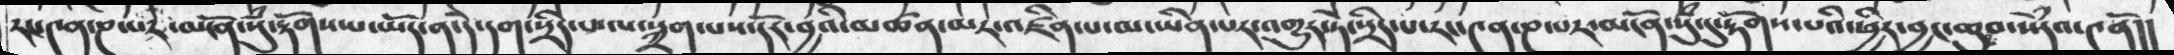རང་༤ན་ཎ་པར་མངོན་སུཾ་རྟོགསཔ་ཡོད་ན་དེ་དག་སྲིད་པ་ལ་སྐྲག་པས་དོར་བྱའི་མཚན་མར་འཛིན་པ་མ་ཡིན་པར་འགྱུར་ཏེ་སྲིད་པ་རང་༤ན་ཎ་པར་མངོན་སུཾ་དུ་རྟོགས་པའི་ཕྱིར་བྱང་ཆུབ་སེཾདའ་༤ནོ།།
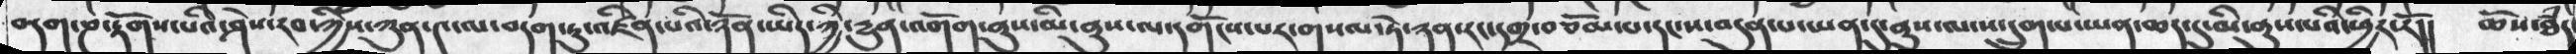བདག་ཎ་རྟོགས་པའི་ཤེས་རབ་ཀྱིས་ཀུན་༤་ལ་བདག་ཏུ་འཛིན་པའི་ཉོན་ཡིད་ཀྱི་དྱུན་འགོག་ནུས་མི་ནུས་ལ་དགོངས་པར་གསལ་ཏེ་ཉན་རང་དགྲ་བཅོམ་པ་དང་ས་བདུན་པ་ཡན་དུ་ནུས་ལ་ས་དྲུག་པ་ཡན་ཆད་དུམི་ནུས་པའི་ཕྱིར་རོ།། ཆོས་ཐཾད་་
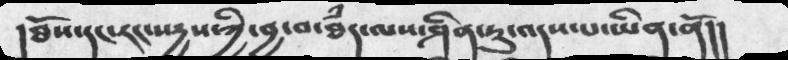།ཐོས་དང་རང་སདྱས་ཀྱི་བྱ་བ་ཐཾད་ལས་ཤིན་ཏུ་འདས་པ་ཡིན་ནོ།།
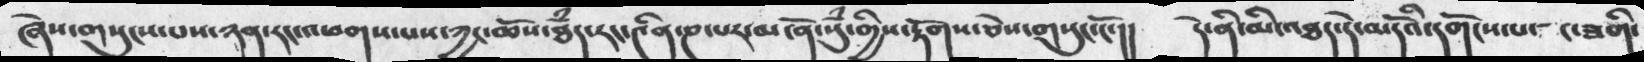ཞེས་གསུངས་པས་ཉན་རང་འཕགས་པས་ཀྱང་ཆོས་ཐཾད་རང་༤ན་ཎ་པར་མངོན་སུཾ་གྱིས་རྟོགས་ཅེས་གསུངས་ངོ་།།  དེ་ནི་མི་འཐད་དེ་མདོའི་དགོགས་པ་གང་ཟགི་
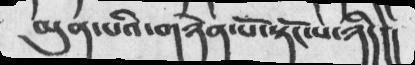མུན་པའི་གཉེན་པོ་སྟོང་པ་ཉིད།།
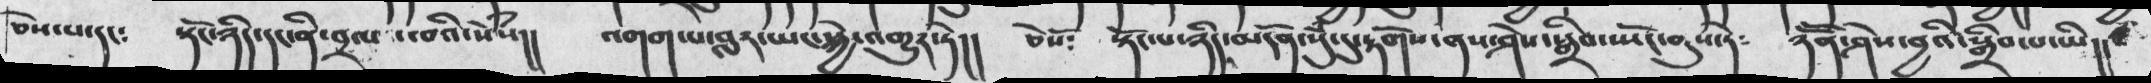ཅེདས་པ་དང༴   སྟོང་ཉིད་དང་ནི་བྲལ་ བའི་སེཾས།།  འགག་པ་སླར་ཡང་སྐྱེ་འགྱུར་ཏེ།།  ཅེསོ༴   སྟོང་པ་ཉིད་མངོན་སུཾ་དུ་རྟོགས་ནས་ཤེས་སྒྲིབ་སྤོང་ནུས་ཏེ༴   ཉོོན་ཤེས་བྱའི་སྒྲིབ་པ་ཡི།།
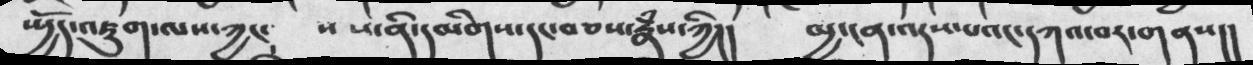སྤྱོད་འཇུག་ལས་ཀྱང༴  ས  ས་ནི་དམིགས་དང་བཅས་རྣཾས་ཀྱི།།   མྱ་ངན་འདས་་པའང་དཀའ་བར་གནས།།
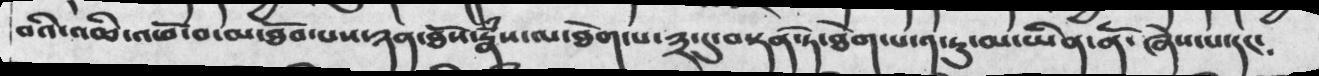བའི་འཆི་འཕོ་བ་མ་ཐོབ་པས་ཉན་ཐོས་རྣཾས་ལ་ཐེག་པ་༣་དུ་བསྟན་ཏེ་ཐེག་པ་༡་ཏུ་མ་ཡིན་ནོ་ ཞེས་པ་དང༴
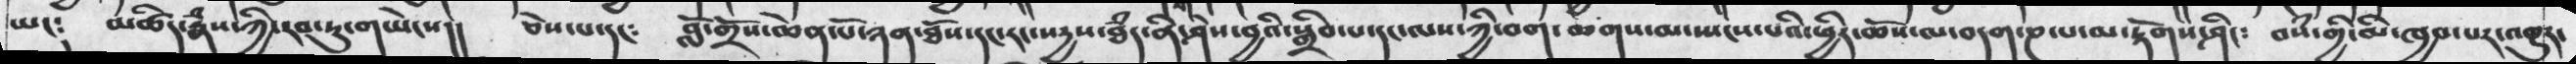ཡང༴  མཚིད་རྣྃས་ཀྱི་རབ་ཏུ་གཡེངས།།  ཅེས་པ་དང༴  བློ་གྲོས་ཆེན་པོ་ཉན་ཐོས་དདང་ར་སདྱས་ཐཾད་ནི་ཤེས་བྱའི་སྒྲིབ་པ་དང་ལས་ཀྱི་བག་ཆགས་མ་སྤངས་པའི་ཕྱིར་ཆོས་ལ་བདག་ཎ་པ་མ་རྟོགས་ཤིང༴   བསཾ་གྱི་མི་ཁྱབ་པར་འགྱུར་
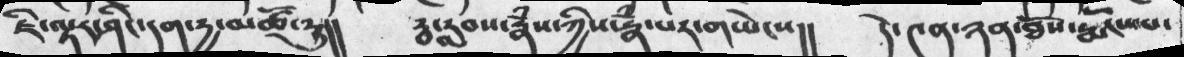ཇི་ལྟར་ཤིང་དག་དྱ་མཚོ་རུ།།   རྦ་རླབས་རྣཾས་ཀྱིས་རྣཾ་པར་གཡེངས།།     དེ་༤ན་ཉན་ཐོས་རྨོངས་པ་
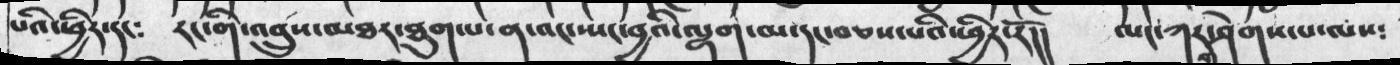པའི་ཕྱིར་དང༴  རང་གི་འབྲུས་མཐར་ཐུག་པ་ན་འང་སྤང་བྱའི་ལྷག་མ་དང་བཅས་པའི་ཕྱིར་རོ།།   ལང་ཀར་གཤེགས་པ་ལས༴
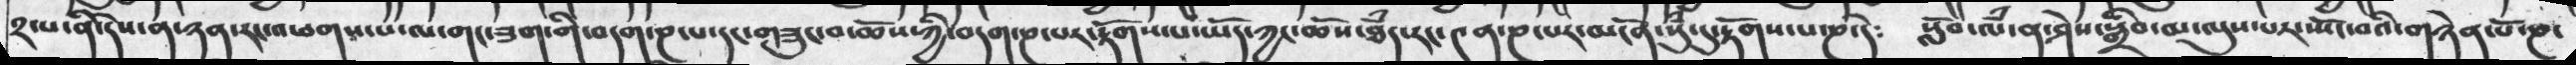༢་པ་ནི་དེས་ན་ཉན་རང་འཕགས་པ་ལ་གང་ཟག་གི་བདག་ཎ་པ་དང་གཟུང་བ་ཆོས་ཀྱི་བདག་ཎ་པར་རྟོགས་པ་ཡོད་ཀྱང་ཆོས་ཐཾད་རང་༤ན་ཎ་པར་མངོན་སུཾ་དུ་རྟོགས་པ་ཎ་དེ༴    སློབ་ལཾ་ན་ཤེས་སྒྲིབ་མ་ལུས་པར་སྤོང་བའི་གཉེན་པོ་ཎ་
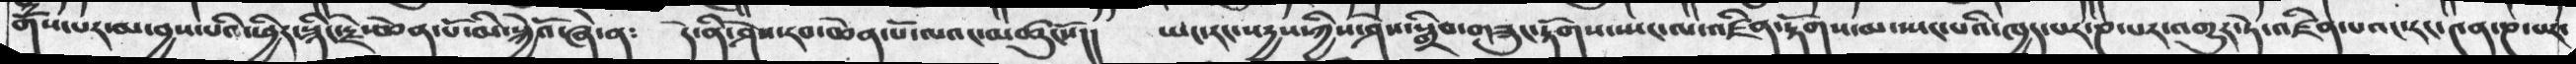གོཾས་པར་མ་བྱས་པའི་ཕྱིར་སྙིང་རྗེ་ཆེན་པོ་མི་སྐྱེའོ་ཞེས་ན༴   དེ་ནི་ཤེས་རབ་ཆེན་པོ་ལའང་མཚུངསོ།།  ཡང་རང་སདྱས་ཀྱིས་ཤེས་སྒྲིབ་གཟུང་རྟོགས་སྤང་ལ་འཛིན་རྟོགས་མ་སྤང་པའི་ཁྱད་པར་ཎ་པར་འགྱུར་ཏེ་འཛིན་པའང་རང་༤ན་ཎ་པར་
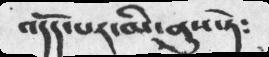འདོད་པར་མི་ནུས་ཏེ༴
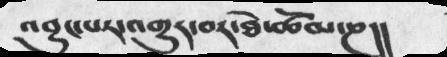འབྱུང་པར་འགྱུར་བར་ཐེ་ཚོམ་ཎ།།
